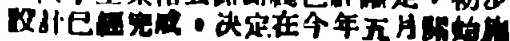設計已經完成，決定在今年五月開始施
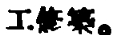工修築。
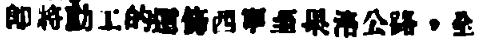卽將動工的這條西寧至果洛公路，全
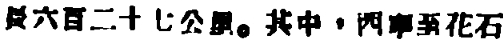長六百二十七公里。其中，西寧至花石
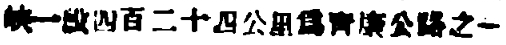峽一段四百二十四公里爲靑康公路之一
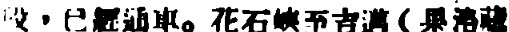段，已經通車。花石峽至吉邁（果洛藏
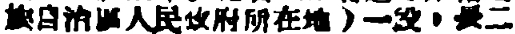族自治區人民政府所在地）一段，長二
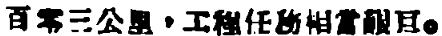百零三公里，工程任務相當艱巨。
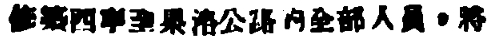修築西寧至果洛公路的全部人員，將
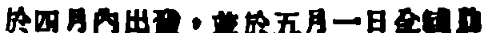於四月內出發，並於五月一日全綫動
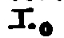工。
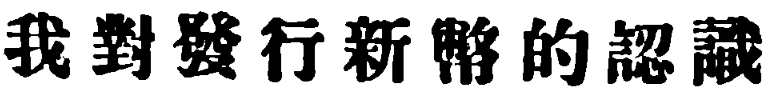我對發行新幣的認識
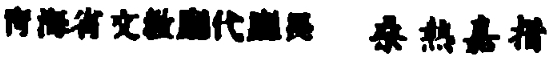靑海省文教廳代廳長 桑熱嘉措
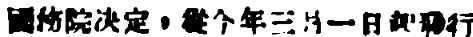國務院決定，從今年三月一日起發行
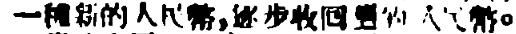一種新的人民幣，逐步收囘舊的人民幣。
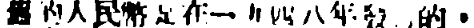舊的人民幣是在一九四八年發行的，
